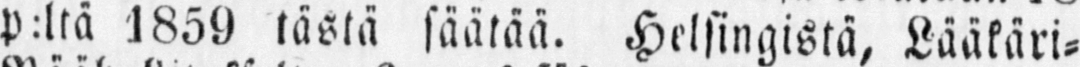p:ltä 1859 tästä säätää. Helsingistä, Lääkäri-
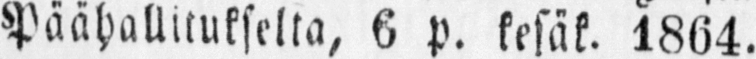Paähallitukselta, 6 p. kesäk. 1864.
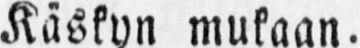Käskyn mukaan.
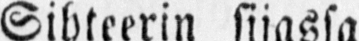Sihteerin sijassa
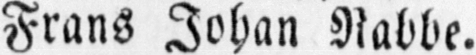Frans Johan Nabbe.
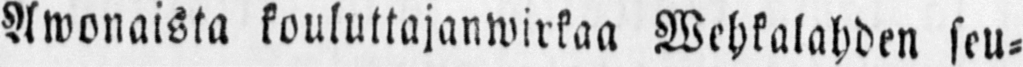Awonaista kouluttajanwirkaa Wehkalahden seu-
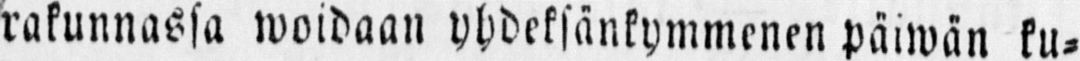rakunnassa woidaan yhdeksänkymmenen päiwän ku-
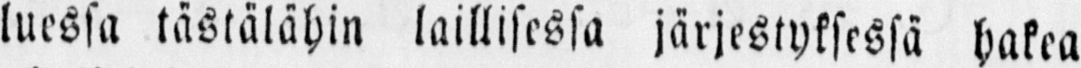luessa tästälähin laillisessa järjestyksessä hakea
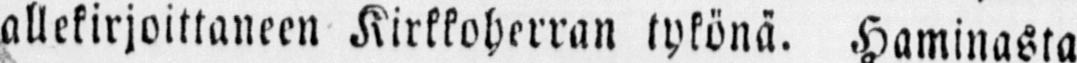allekirjoittaneen Kirkkoherran tykönä. Haminasta
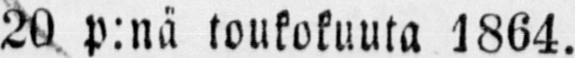20 p:nä toukokuuta 1864.
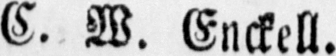C. W. Enckell.
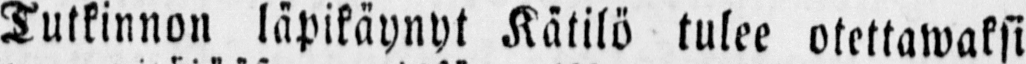Tutkinnon läpikäynyt Kätilö tulee otettawaksi
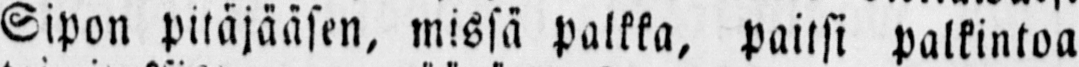Sipon pitäjääsen, missä palkka, paitsi palkintoa
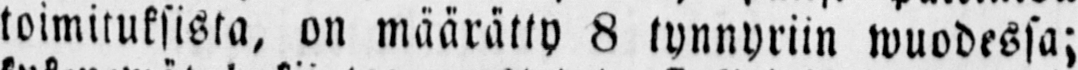toimituksista, on määrätty 8 tynnyriin wuodessa;
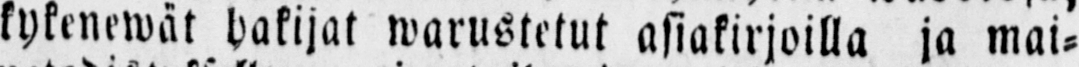kykenewät hakijat warustetut asiakirjoilla ja mai-
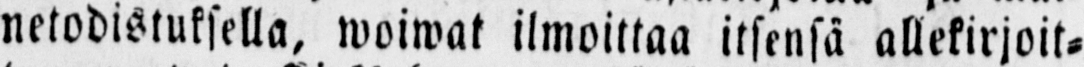netodistuksella, woiwat ilmoittaa itsensä allekirjoit-
